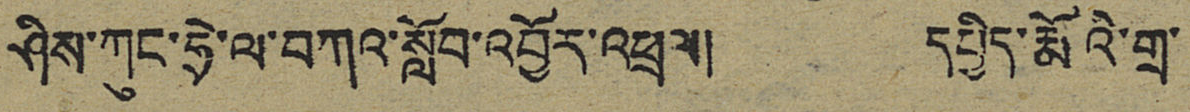ཤིས་ཀུང་ཧྲེ་ལ་བཀའ་སློབ་འབྱོར་འཕྲལ། དཔྱིད་རྨོའི་གྲ་
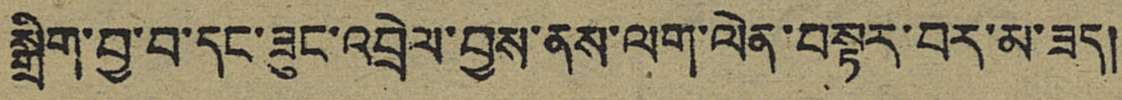སྒྲིག་བྱ་བ་དང་ཟུང་འབྲེལ་བྱས་ནས་ལག་ལེན་བསྟར་བར་མ་ཟད།
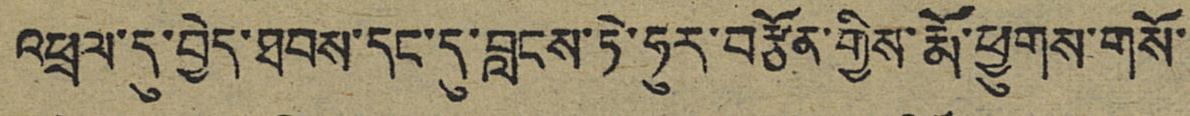འཕྲལ་དུ་བྱེད་ཐབས་དང་དུ་བླངས་ཏེ་ཧུར་བརྩོན་གྱིས་རྨོ་ཕྱུགས་གསོ་
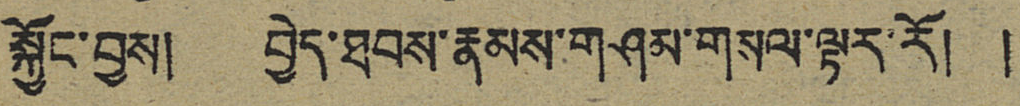སྐྱོང་བྱས། བྱེད་ཐབས་རྣམས་གཤམ་གསལ་ལྟར་རོ། །
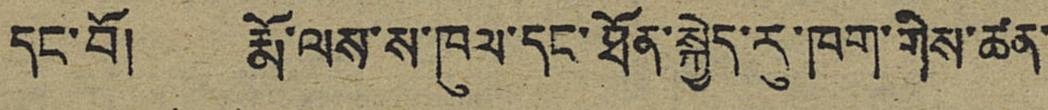དང་བོ། རྨོ་ལས་ས་ཁུལ་དང་ཐོན་སྐྱེད་རུ་ཁག་གིས་ཚན་
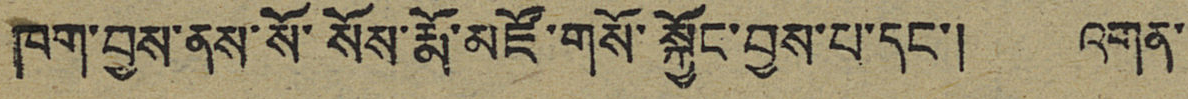ཁག་བྱས་ནས་སོ་སོས་རྨོ་མཛོ་གསོ་སྐྱོང་བྱས་པ་དང་། འགན་
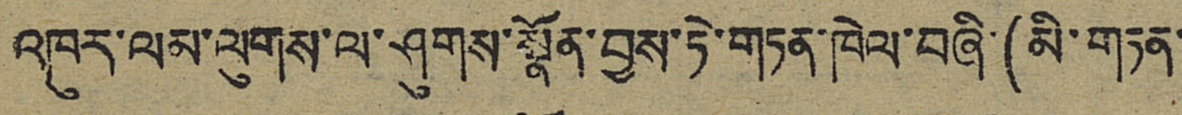འཁུར་ལམ་ལུགས་ལ་ཤུགས་སྣོན་བྱས་ཏེ་གཏན་ཁེལ་བཞི་(མི་གཏན་
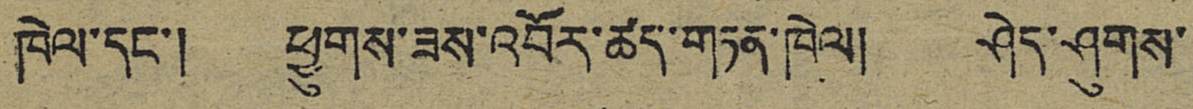ཁེལ་དང་། ཕྱུགས་ཟས་འབོར་ཚད་་གཏན་ཁེལ། ཤེད་ཤུགས་
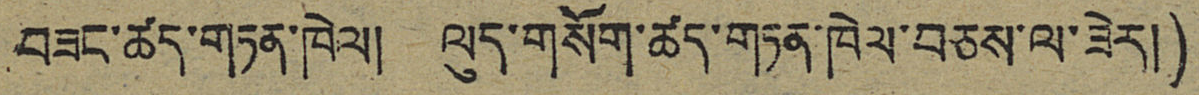བཟང་ཚད་གཏན་ཁེལ། ལུད་གསོག་ཚད་གཏན་ཁེལ་བཅས་ལ་ཟེར།)
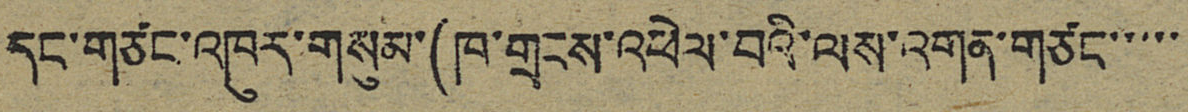དང་གཙང་འཁུར་གསུམ་(ཁ་གྲངས་འཕེལ་བའི་ལས་འགན་གཙང་་་་་
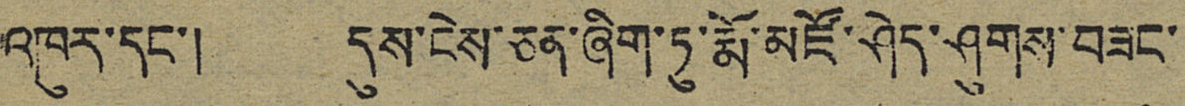འཁུར་དང་། དུས་ངེས་ཅན་ཞིག་ཏུ་རྨོ་མཛོ་ཤེད་ཤུགས་བཟང་
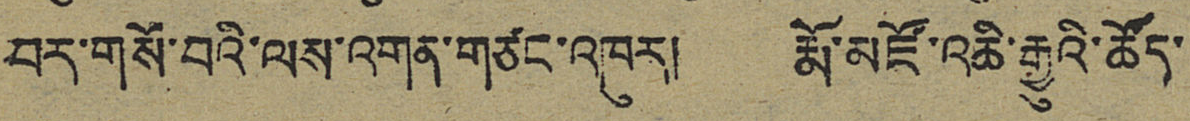བར་གསོ་བའི་ལས་འགན་གཙང་འཁུར། རྨོ་མཛོ་འཆི་རྒྱུའི་ཚོད་
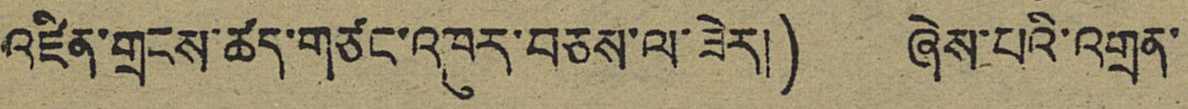འཛིན་གྲངས་ཚད་གཙང་འཁུར་བཅས་ལ་ཟེར།) ཞེས་པའི་འགྲན་
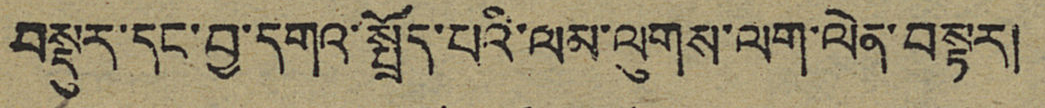བསྡུར་དང་བྱ་དགའ་སྤྲོད་པའི་ལམ་ལུགས་ལག་ལེན་བསྟར།
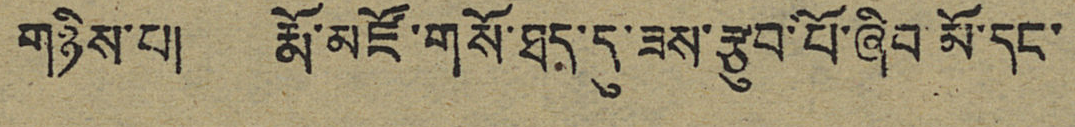གཉིས་པ། རྨོ་མཛོ་གསོ་ཐད་དུ་ཟས་རྩུབ་པོ་ཞིབ་མོ་དང་
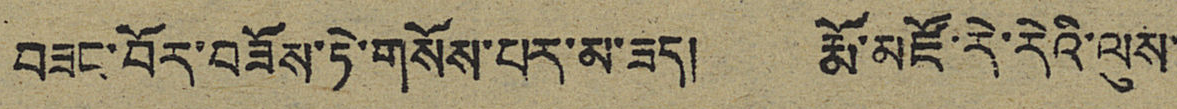བཟང་བོར་བཟོས་ཏེ་གསོས་པར་མ་ཟད། རྨོ་མཛོ་རེ་རེའི་ལུས་
